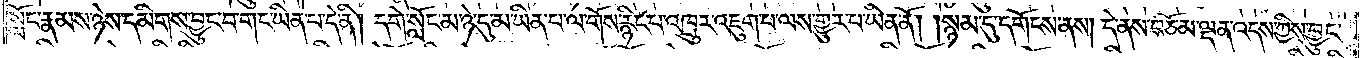སློང་རྣམས་ཉེས་དམིགས་བྱུང་བ་གང་ཡིན་པ་དེ་ནི། དགེ་སློང་མ་ཉེ་དུ་མ་ཡིན་པ་ལ་གོས་རྙིང་པ་འཁྲུར་འཇུག་པ་ལས་གྱུར་པ་ཡིན་ནོ། །སྙམ་དུ་དགོངས་ནས། དེ་ནས་བཅོམ་ལྡན་འདས་ཀྱིས་བྱུང་
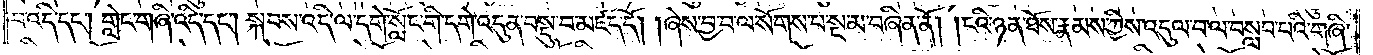བ་འདི་དང༌། གླེང་གཞི་འདི་དང༌། སྐབས་འདི་ལ་དགེ་སློང་གི་དགེ་འདུན་བསྡུ་བ་མཛད་དོ། །ཞེས་བྱ་བ་ལ་སོགས་པ་སྔ་མ་བཞིན་ནོ། །ངའི་ཉན་ཐོས་རྣམས་ཀྱིས་འདུལ་བ་ལ་བསླབ་པའི་གཞི་
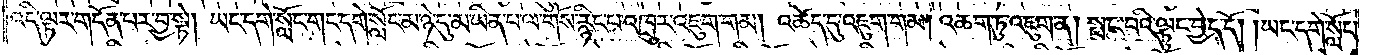འདི་ལྟར་གདོན་པར་བྱ་སྟེ། ཡང་དགེ་སློང་གང་དགེ་སློང་མ་ཉེ་དུ་མ་ཡིན་པ་ལ་གོས་རྙིང་པ་འཁྲུར་འཇུག་གམ། འཚེད་དུ་འཇུག་གམ། འཆག་ཏུ་འཇུག་ན། སྤང་བའི་ལྟུང་བྱེད་དོ། །ཡང་དགེ་སློང་
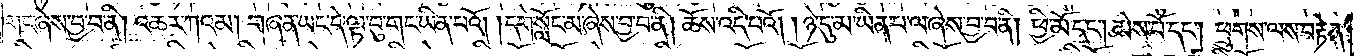གང་ཞེས་བྱ་བ་ནི། འཆར་ཀའམ། གཞན་ཡང་དེ་ལྟ་བུ་གང་ཡིན་པའོ། །དགེ་སློང་མ་ཞེས་བྱ་བ་ནི། ཆོས་འདི་པའོ། །ཉེ་དུ་མ་ཡིན་པ་ལ་ཞེས་བྱ་བ་ནི། ཕྱི་མོ་དང༌། མེས་པ་དང༌། ཕྲུགས་ལས་བརྟེན་
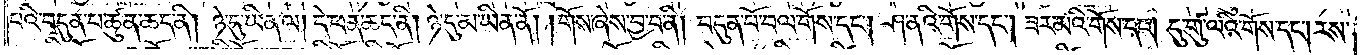པའི་བདུན་པ་ཚུན་ཆད་ནི། ཉེ་དུ་ཡིན་ལ། དེ་ཕན་ཆད་ནི། ཉེ་དུ་མ་ཡིན་ནོ། །གོས་ཞེས་བྱ་བ་ནི། བདུན་པོ་བལ་གོས་དང༌། ཤ་ནའི་གོས་དང༌། ཟར་མའི་གོས་དང༌། དུ་གུ་ལའི་གོས་དང༌། རས་
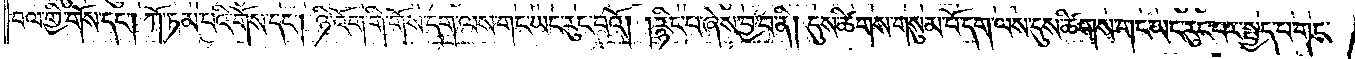བལ་གྱི་གོས་དང༌། ཀོ་ཏམ་པའི་གོས་དང༌། ཉི་འོག་གི་གོས་དག་ལས་གང་ཡང་རུང་བའོ། །རྙིང་པ་ཞེས་བྱ་བ་ནི། དུས་ཚིགས་གསུམ་པོ་དག་ལས་དུས་ཚིགས་གང་ཡང་རུང་བར་སྤྱད་པ་གང་
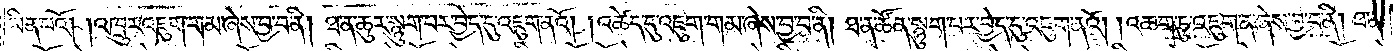ཡིན་པའོ། །འཁྲུར་འཇུག་གམ་ཞེས་བྱ་བ་ནི། ཐ་ན་ཆུར་སྙུག་པར་བྱེད་དུ་འཇུག་ནའོ། །འཚེད་དུ་འཇུག་གམ་ཞེས་བྱ་བ་ནི། ཐ་ན་ཚོན་སྙུག་པར་བྱེད་དུ་འཇུག་ནའོ། །འཆག་ཏུ་འཇུག་ན་ཞེས་བྱ་བ་ནི། ཐ་ན་
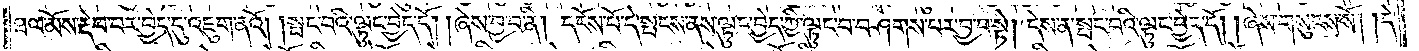ཐལ་མོས་རྡེབ་པར་བྱེད་དུ་འཇུག་ནའོ། །སྤང་བའི་ལྟུང་བྱེད་དོ། །ཞེས་བྱ་བ་ནི། དངོས་པོ་དེ་སྤངས་ནས་ལྟུང་བྱེད་ཀྱི་ལྟུང་བ་བཤགས་པར་བྱ་བ་སྟེ། དེས་ན་སྤང་པའི་ལྟུང་བྱེད་དོ། །ཞེས་གསུངས་སོ། །དེ་
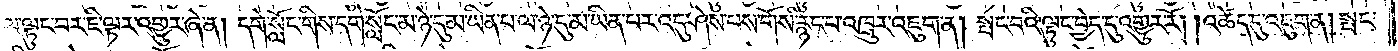ལ་ལྟུང་བར་ཇི་ལྟར་འགྱུར་ཞེ་ན། དགེ་སློང་གིས་དགེ་སློང་མ་ཉེ་དུ་མ་ཡིན་པ་ལ་ཉེ་དུ་མ་ཡིན་པར་འདུ་ཤེས་པས་གོས་རྙིང་པ་འཁྲུར་འཇུག་ན། སྤང་བའི་ལྟུང་བྱེད་དུ་འགྱུར་རོ། །འཚེད་དུ་འཇུག་ན། སྤང་
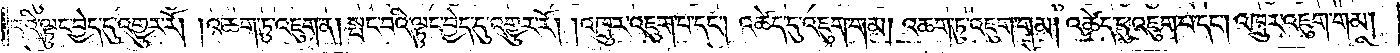བའི་ལྟུང་བྱེད་དུ་འགྱུར་རོ། །འཆག་ཏུ་འཇུག་ན། སྤང་བའི་ལྟུང་བྱེད་དུ་འགྱུར་རོ། །འཁྲུར་འཇུག་པ་དང༌། འཚེད་དུ་འཇུག་གམ། འཆག་ཏུ་འཇུག་གམ། འཚེད་དུ་འཇུག་པ་དང༌། འཁྲུར་འཇུག་གམ།
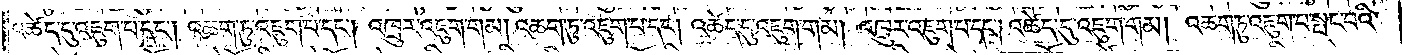འཚེད་དུ་འཇུག་པ་དང༌། འཆག་ཏུ་འཇུག་པ་དང༌། འཁྲུར་འཇུག་གམ། འཆག་ཏུ་འཇུག་པ་དང༌། འཚེད་དུ་འཇུག་གམ། འཁྲུར་འཇུག་པ་དང༌། འཚེད་དུ་འཇུག་གམ། འཆག་ཏུ་འཇུག་པ་སྤང་བའི་
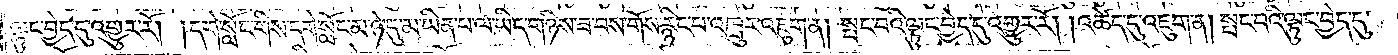ལྟུང་བྱེད་དུ་འགྱུར་རོ། །དགེ་སློང་གིས་དགེ་སློང་མ་ཉེ་དུ་མ་ཡིན་པ་ལ་ཡིད་གཉིས་ཟ་བས་གོས་རྙིང་པ་འཁྲུར་འཇུག་ན། སྤང་བའི་ལྟུང་བྱེད་དུ་འགྱུར་རོ། །འཚེད་དུ་འཇུག་ན། སྤང་བའི་ལྟུང་བྱེད་དུ་
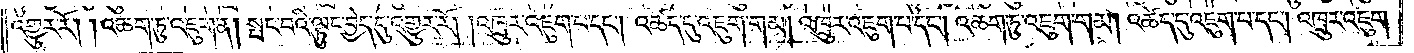འགྱུར་རོ། །འཆག་ཏུ་འཇུག་ན། སྤང་བའི་ལྟུང་བྱེད་དུ་འགྱུར་རོ། །འཁྲུར་འཇུག་པ་དང༌། འཚེད་དུ་འཇུག་གམ། འཁྲུར་འཇུག་པ་དང༌། འཆག་ཏུ་འཇུག་གམ། འཚེད་དུ་འཇུག་པ་དང༌། འཁྲུར་འཇུག་
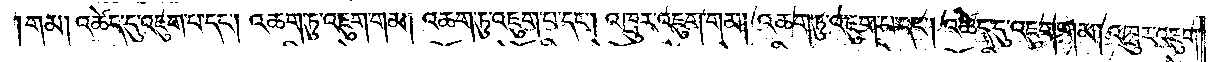གམ། འཚེད་དུ་འཇུག་པ་དང༌། འཆག་ཏུ་འཇུག་གམ། འཆག་ཏུ་འཇུག་པ་དང༌། འཁྲུར་འཇུག་གམ། འཆག་ཏུ་འཇུག་པ་དང༌། འཚེད་དུ་འཇུག་གམ། འཁྲུར་འཇུག་
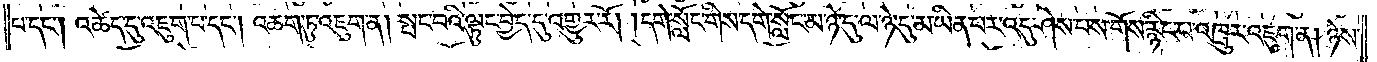པ་དང༌། འཚེད་དུ་འཇུག་པ་དང༌། འཆག་ཏུ་འཇུག་ན། སྤང་བའི་ལྟུང་བྱེད་དུ་འགྱུར་རོ། །དགེ་སློང་གིས་དགེ་སློང་མ་ཉེ་དུ་ལ་ཉེ་དུ་མ་ཡིན་པར་འདུ་ཤེས་པས་གོས་རྙིང་པ་འཁྲུར་འཇུག་ན། ཉེས་
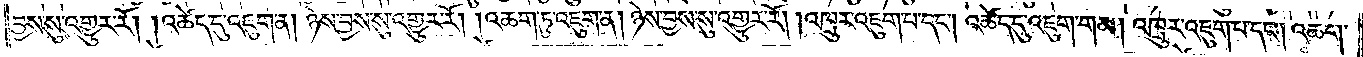བྱས་སུ་འགྱུར་རོ། །འཚེད་དུ་འཇུག་ན། ཉེས་བྱས་སུ་འགྱུར་རོ། །འཆག་ཏུ་འཇུག་ན། ཉེས་བྱས་སུ་འགྱུར་རོ། །འཁྲུར་འཇུག་པ་དང༌། འཚེད་དུ་འཇུག་གམ། འཁྲུར་འཇུག་པ་དང༌། འཆག་
